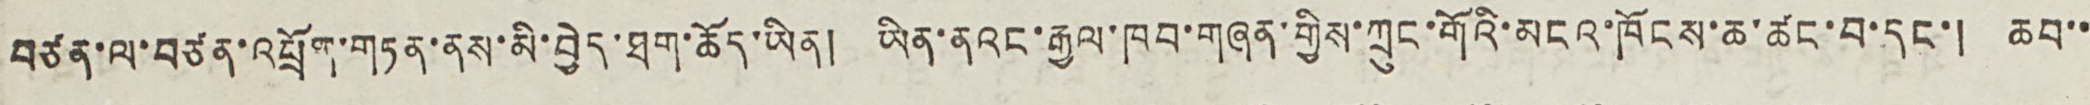བཙན་ལ་བཙན་འཕྲོག་གཏན་ནས་མི་བྱེད་ཐག་ཆོད་ཡིན། ཡིན་ནའང་རྒྱལ་ཁབ་གཞན་གྱིས་ཀྲུང་གོའི་མངའ་ཁོངས་ཆ་ཚང་བ་དང་། ཆབ་་
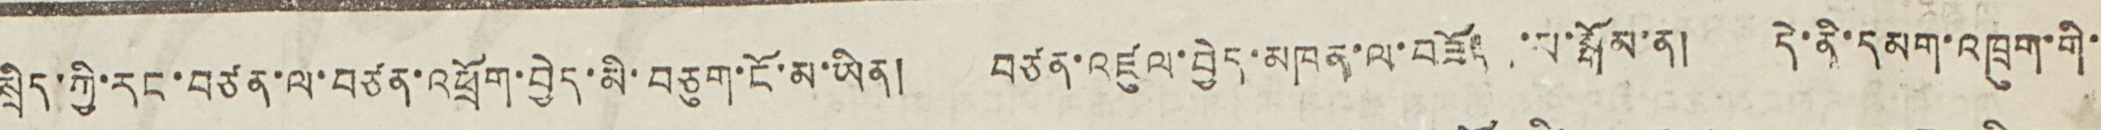སྲིད་ཀྱི་རང་བཙན་ལ་བཙན་འཕྲོག་བྱེད་མི་བཅུག་ངོ་མ་ཡིན། བཙན་འཛུལ་བྱེད་མཁན་ལ་བཟོད ་པ་སྒོམ་ན། དེ་ནི་དམག་འཁྲུག་གི་
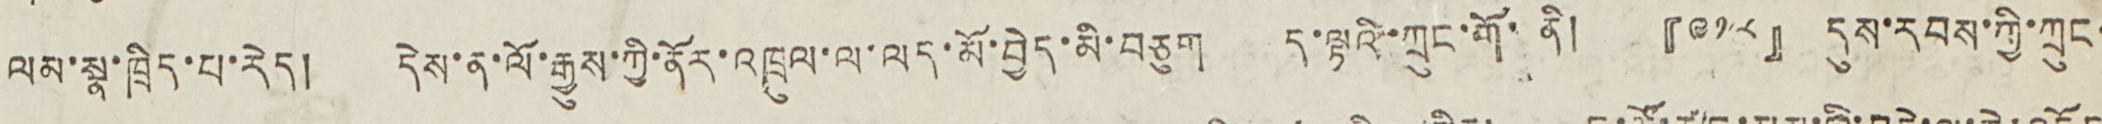ལམ་སྣ་ཁྲིད་པ་རེད། དེས་ན་ལོ་རྒྱུས་ཀྱི་ནོར་འཁྲུལ་ལ་ལད་མོ་བྱེད་མི་བཅུག ད་ལྟའི་ཀྲུང་གོ་ནི། 『༩༡༨』 དུས་རབས་ཀྱི་ཀྲུང་
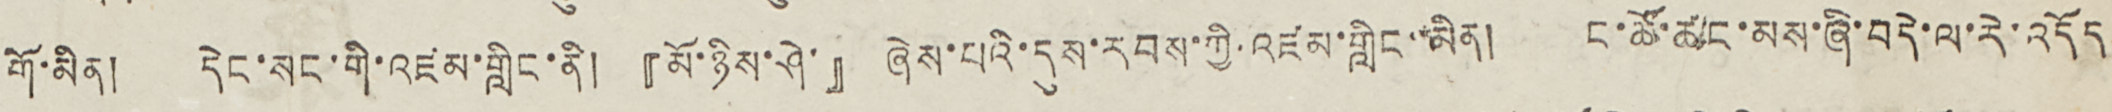གོ་མིན། དེང་སང་གི་འཛམ་གླིང་ནི། 『མོ་ཉིས་ཤེ་』 ཞེས་པའི་དུས་རབས་ཀྱི་འཛམ་གླིང་མིན། ང་ཚོ་ཚང་མས་ཞི་བདེ་ལ་རེ་འདོད
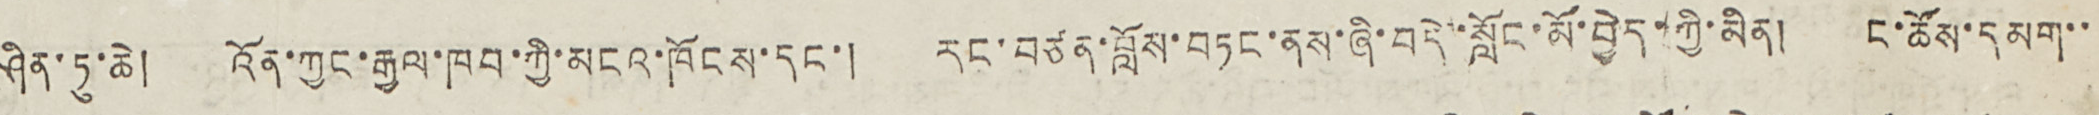ཤིན་ཏུ་ཆེ། འོན་ཀྱང་རྒྱལ་ཁབ་ཀྱི་མངའ་ཁོངས་དང་། རང་བཙན་བློས་བཏང་ནས་ཞི་བདེ་སློང་མོ་བྱེད་ཀྱི་མིན། ང་ཚོས་དམག་་
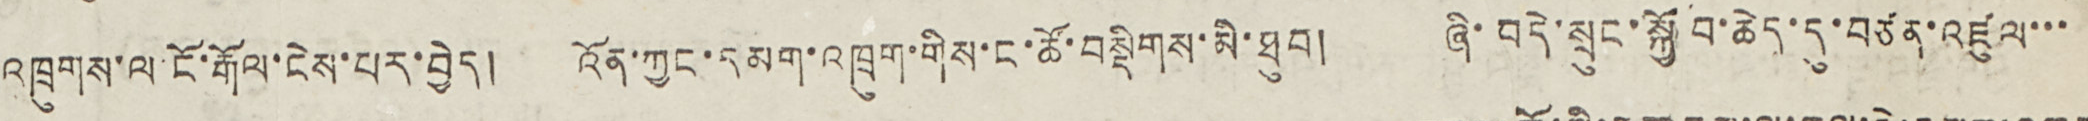འཁྲུགས་ལ་ངོ་རྒོལ་ངེས་པར་བྱེད། འོན་ཀྱང་དམག་འཁྲུག་གིས་ང་ཚོ་བསྡེགས་མི་ཐུབ། ཞི་བདེ་སྲུང་སྐྱོབ་ཆེད་དུ་བཙན་འཛུལ་་་
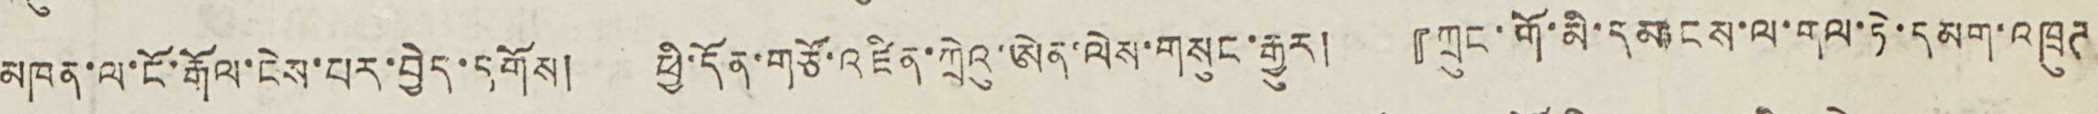མཁན་ལ་ངོ་རྒོལ་ངེས་པར་བྱེད་དགོས། ཕྱི་དོན་གཙོ་འཛིན་ཀྲེའུ་ཨེན་ལེས་གསུང་རྒྱུར། 『ཀྲུང་གོ་མི་དམངས་ལ་གལ་ཏེ་དམག་འཁྲུཊ
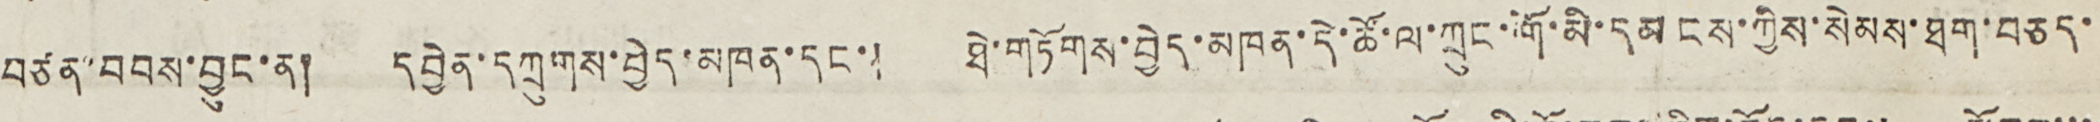བཙན་བབས་བྱུང་ན། དབྱེན་དཀྲུགས་བྱེད་མཁན་དང་། ཐེ་གཏོགས་བྱེད་མཁན་དེ་ཚོ་ལ་ཀྲུང་གོ་མི་དམངས་ཀྱིས་སེམས་ཐག་བཅད་
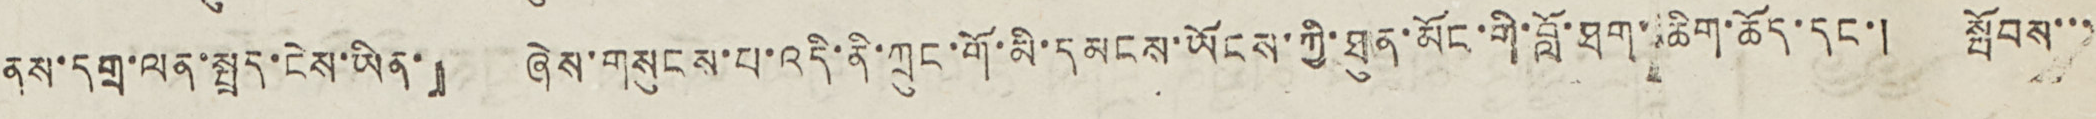ནས་དགྲ་ལན་སྤྲད་ངེས་ཡིན་』 ཞེས་གསུངས་པ་འདི་ནི་ཀྲུང་གོ་མི་དམངས་ཡོངས་ཀྱི་ཐུན་མོང་གི་བློ་ཐག་ཚིག་ཆོད་དང་། སྤོབས་་་
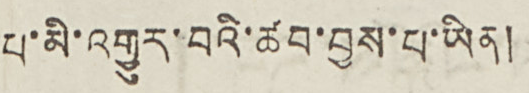པ་མི་འགྱུར་བའི་ཚབ་བྱས་པ་ཡིན།
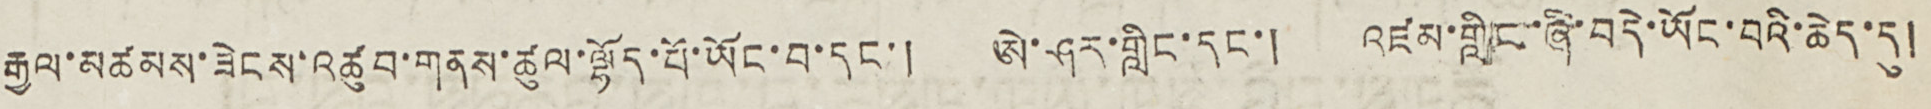རྒྱལ་མཚམས་ཟེངས་འཚུབ་གནས་ཚུལ་ལྷོད་པོ་ཡོང་བ་དང་། ཨེ་ཤར་གླིང་དང་། འཛམ་གླིང་ཞི་བདེ་ཡོང་བའི་ཆེད་དུ།
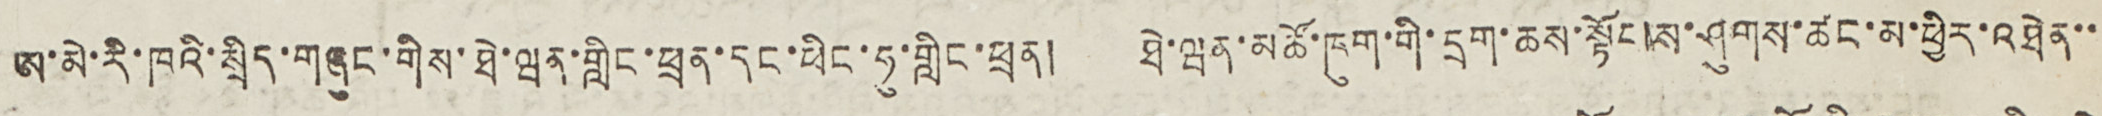ཨ་མེ་རི་ཁའི་སྲིད་གཞུང་གིས་ཐེ་ཝན་གླིང་ཕྲན་དང་ཕིང་ཧུ་གླིང་ཕྲན། ཐེ་ཝན་མཚོ་ཁུག་གི་དྲག་ཆས་སྟོབས་ཤུགས་ཚང་མ་ཕྱིར་འཐེན་་
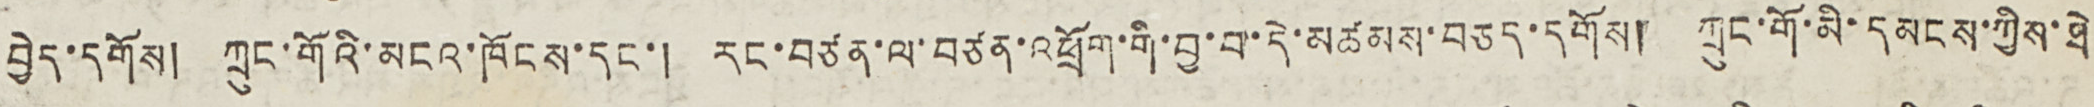བྱེད་དགོས། ཀྲུང་གོའི་མངའ་ཁོངས་དང་། རང་བཙན་ལ་བཙན་ལ་འཕྲོག་གི་བྱ་བ་དེ་མཚམས་བཅད་དགོས། ཀྲུང་གོ་མི་དམངས་ཀྱིས་ཐེ
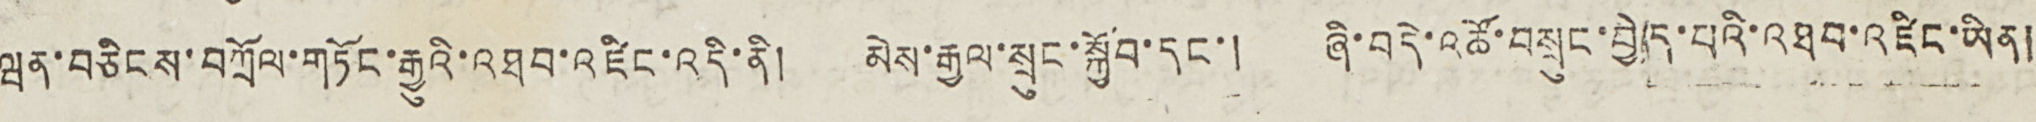ཝན་བཅིངས་བཀྲོལ་གཏོང་རྒྱུའི་འཐབ་འཛིང་འདི་ནི། མེས་རྒྱལ་སྲུང་སྐྱོབ་དང་། ཞི་བདེ་འཚོ་བསྲུང་བྱེད་པའི་འཐབ་འཛིང་ཡིན།
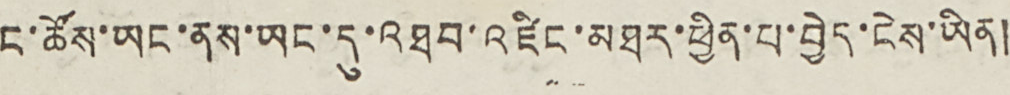ང་ཚོས་ཡང་ནས་ཡང་དུ་འཐབ་འཛིང་མཐར་ཕྱིན་པ་བྱེད་ངེས་ཡིན།
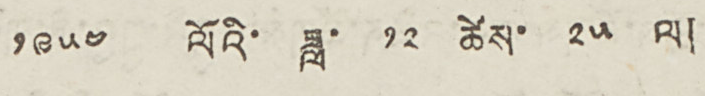༡༩༥༤ ལོའི་ ཟླ་ ༡༢ ཚེས་ ༢༥ ལ།
